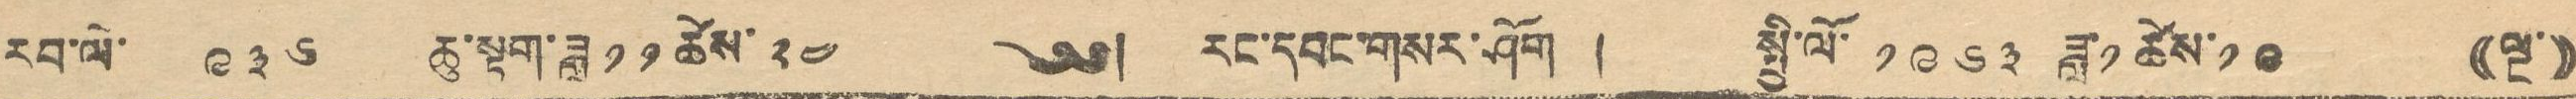རབ་ལོ་ ༩༣༦ ཆུ་སྟག་ཟླ་ ༡༡ ཚེས་ ༢༤ ༄༅། རང་དབང་གསར་ཤོག ། སྤྱི་ལོ་ ༡༩༦༣ ཟླ་ ༡ ཚེས་ ༡༩ ((ལྔ་))
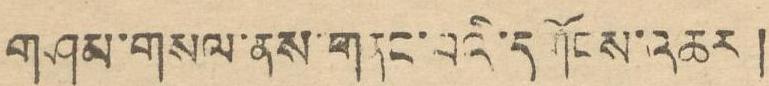གཤམ་གསལ་ནས་གནང་བའི་དགོངས་འཆར།
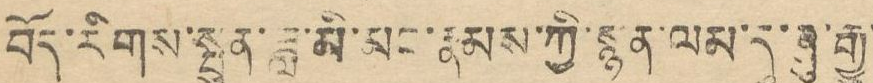བོད་རིགས་སྤུན་ཟླ་མི་མང་རྣམས་ཀྱི་སྙན་ལམ་དུ་ཞུ་རྒྱུ་
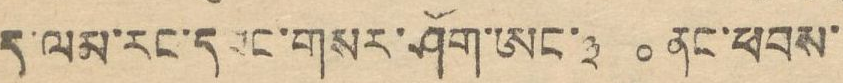ད་ལམ་རང་དབང་གསར་ཤོག་ཨང་༣ ༠ནང་ཕབས་
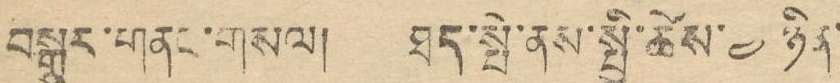བསྒྱུར་གནང་གསལ། ཐད་སྤེ་ནས་སྤྱི་ཚེས་༤ ཉིན་
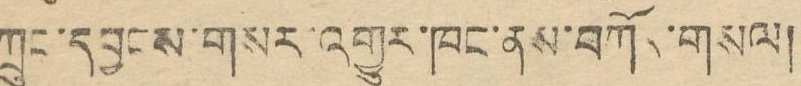ཀྲུང་དབྱངས་གསར་འགྱུར་ཁང་ནས་བཀོར་གསལ།
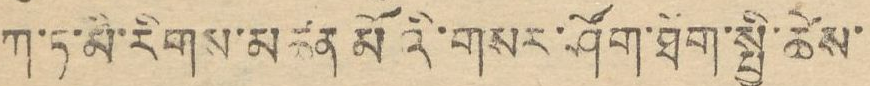ཀ་ཏ་མི་རིགས་མཚན མོའི་གསར་ཤོག་ཐོག་སྤྱི་ཚེས་
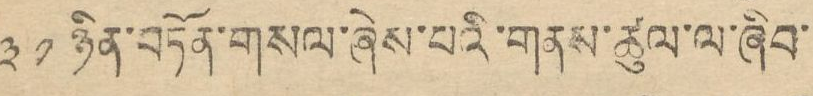༣༡ ཉིན་བཏོན་གསལ་ཞེས་པའི་གནས་ཚུལ་ལ་ཞིབ་
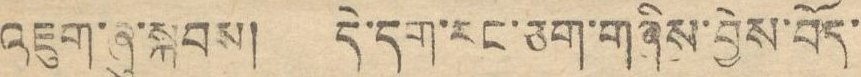འཇུག་ཞུ་སྐབས། དེ་དག་རང་ཅག་གཞིས་བྱེས་བོད་
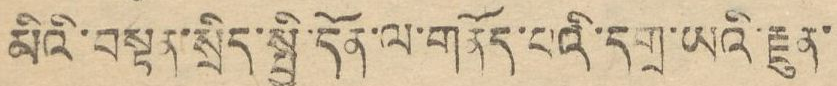མིའི་བསྟན་སྲིད་སྤྱི་དོན་ལ་གནོད་པའི་དགྲ་ཡའི་རྫུན་
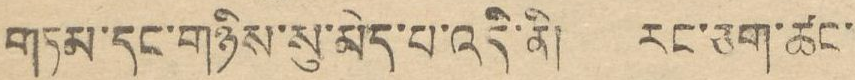གཏམ་དང་གཉིས་སུ་མེད་པ་འདི་ནི། རང་ཅག་ཚང་
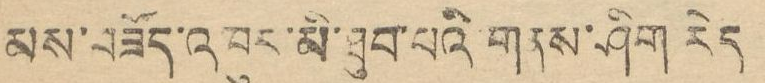མས་བཟོད་འཁུར་མི་ཐུབ་པའི གནས་ཤིག རེད
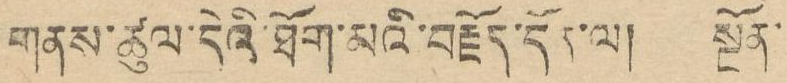གནས་ཚུལ་དེའི་ཐོག་མའི་བརྗོད་དོན་ལ། སྔོན་
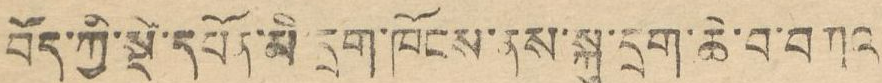བོད་ཀྱི་སྡེ་དཔོན་མི་དྲག་ཁོངས་ནས་སྐུ་དྲག་ཆེ་བ་བཀའ
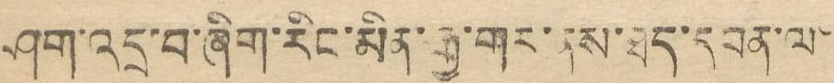ཤག་འདྲ་བ་ཞིག་རིང་མིན་རྒྱ་གར་ནས་ཐད་དབན་ལ་
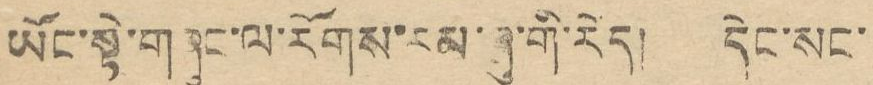ཡོང་སྟེ་གཞུང་ལ་རོགས་རམ་ཞུ་གི་རེད། དེང་སང་
